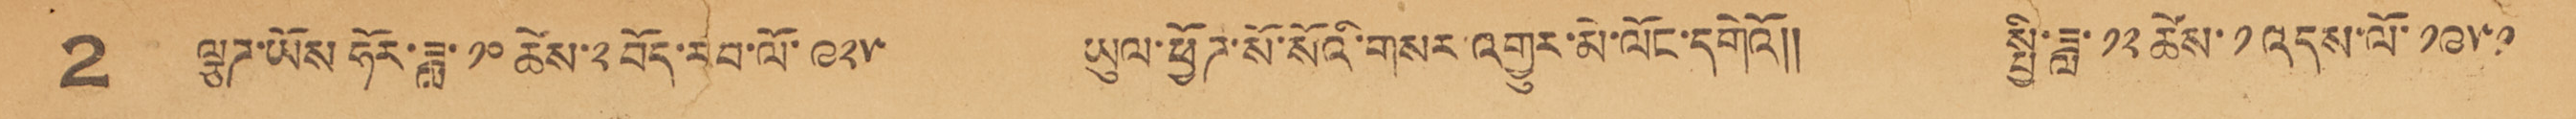2 ལྕཌ་ཡོས ཧོར་ཟླ་ ༡༠ ཚེས་༢བོད་རབ་ལོ་ ༩༢༥ ཡུལ་ཕྱོཌ་སོ་སོའི་གསར་འགྱུར་མེ་ལོང་དགེའོ།། སྤྱི་ཟླ་ ༡༢ ཚེས་ ༡ འདས་ལོ་ ༡༩༥༡
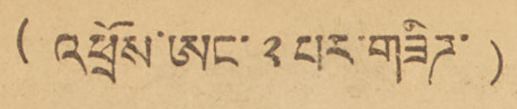(འཕྲོས་ཨང་ ༢ པར་གཟིཌ་ )
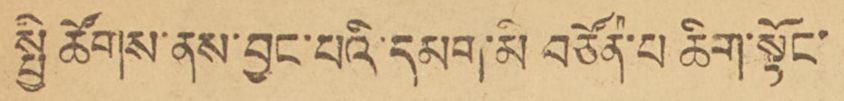སྤྱི ཚོགས་ནས་བྱང་པའི་དམག་མི བཙོན་པ ཆིག་སྟོང་
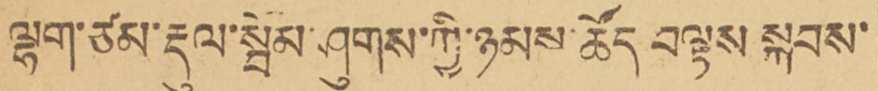ལྷག་ཙམ་རྡུལ་སྦོམ་ཤུགས་ཀྱི་ཉམས་ཚོད བལྟས སྐབས་
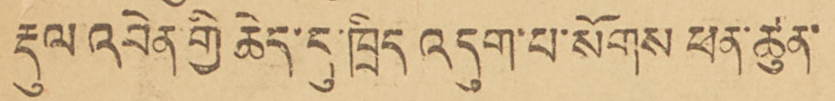རྡུལ འབེན་གྱི ཆེད་དུ་ཁྲིད འདུག་པ་སོགས ཕན་ཚུན་
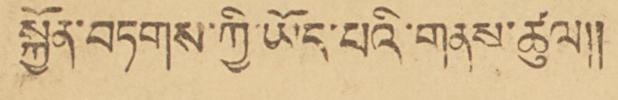སྐྱོན་བཏགས་ཀྱི་ཡོད་པའི་གནས་ཚུལ།།
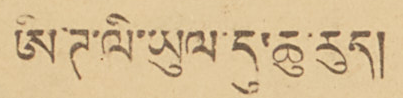ཨི་ཊ་ལི་ཡུལ་དུ་ཆུ་རུད།
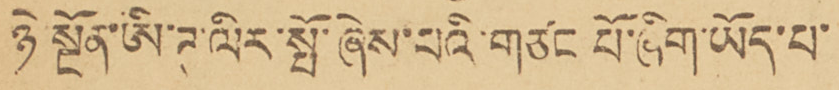ཉེ སྔོན་ཨི་ཊ་ལིར་སྤོ་ཞེས་པའི་གཙང པོ་ཞིག་ཡོད་པ་
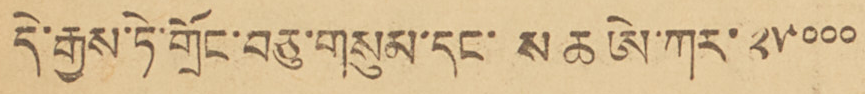དེ་རྒྱས་ཏེ་གྲོང་བཅུ་གསུམ་དང་ ས ཆ ཨེ་ཀར་ ༢༥༠༠༠
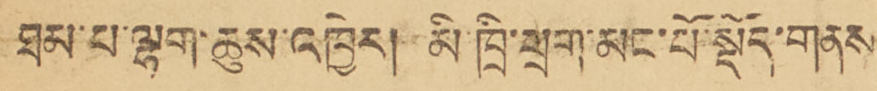ཐམ་པ་ལྷག་ཆུས་འཁྱེར། མི ཁྲི་ཕྲག་མང་པོ་སྡོད་གནས
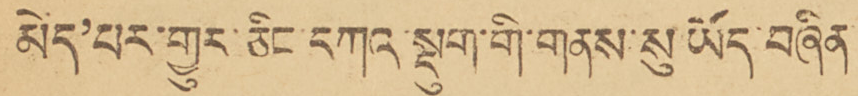མེད་པར་གྱུར་ཅིང་དཀའ་སྡུག་གི་གནས་སུ ཡོད་བཞིན
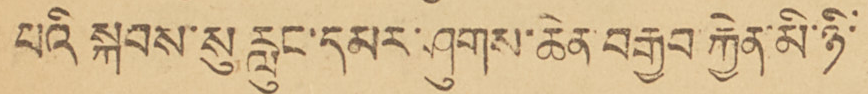པའི སྐབས་སུ རླུང་དམར་ཤུགས་ཆེན་བརྒྱབ་རྐྱེན་མི་ཉི་
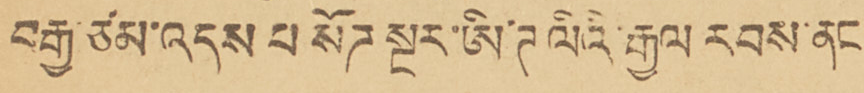བརྒྱ་ཙམ་འདས པ སོཌ སྔར་ཨི་ཊལིའི་རྒྱལ རབས་ནང
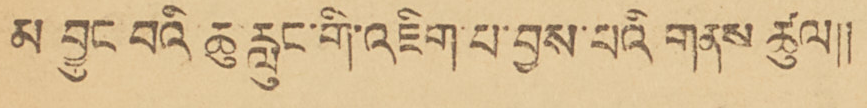མ བྱུང བའི ཆུ་རླུང་གི་འཇིག་པ་བྱས་པའི གནས ཚུལ།།
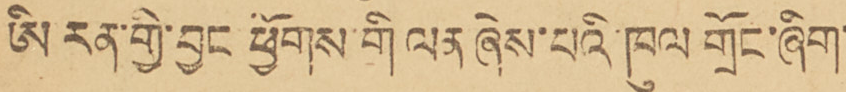ཨི རན་གྱི་བྱང ཕྱོགས་གི ལན ཞེས་པའི་ཁལ གྲོང་ཞིག་
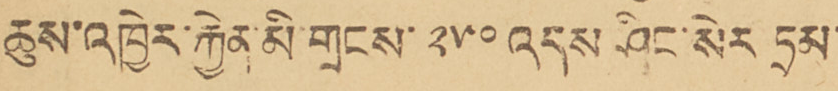ཆུས་འཁྱེར་རྐྱེན་མི་གྲངས་ ༢༥༠ འདས ཤིང་སེར ཏྲམ་
